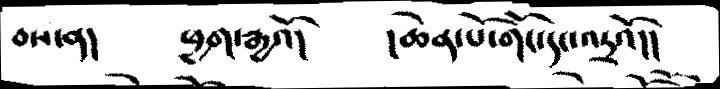བས་ན།    ཕྱག་རྒྱའོ།         །ཆེན་པོ་གོང་དང་འདྲའོ།།
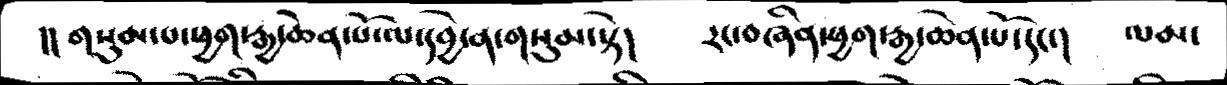།།གསུམ་པ་ཕྱག་རྒྱ་ཆེན་པོ་ལ་དབྱེ་ན་གསུམ་སྟེ།   རང་བཞིན་ཕྱག་རྒྱ་ཆེན་པོ་དང་།   ལམ་
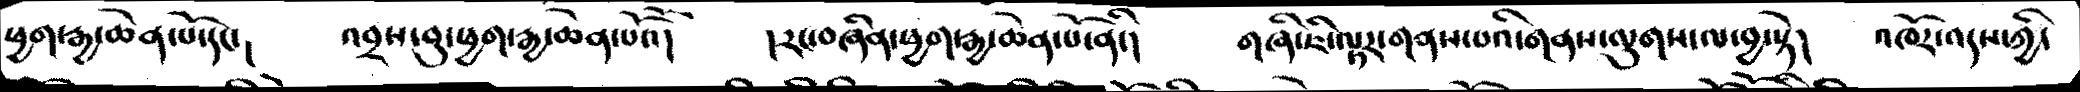ཕྱག་རྒྱ་ཆེན་པོ་ད་།   འབྲས་བུ་ཕྱག་རྒྱ་ཆེན་པོའོ།   །རང་བཞིན་ཕྱག་རྒྱ་ཆེན་པོ་ནི་།   གཞི་ཇི་ལྟར་གནས་པའི་གནས་ལུགས་ལ་བྱ་སྟེ།   འཁོར་འདས་ཀྱི་
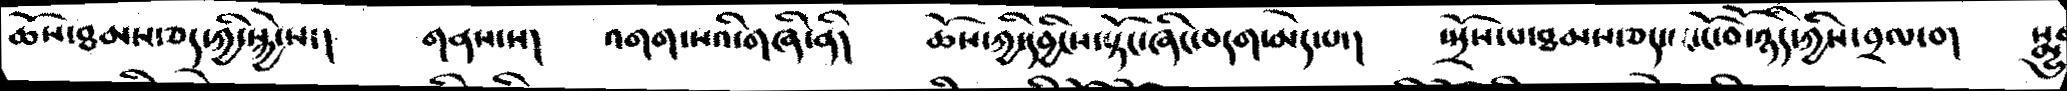ཆོས་ཐམས་ཅད་ཀྱི་སྐྱེ་ས་།   གནས་ས།   འགག་པའི་གཞི་ནི།   ཆོས་ཀྱི་དབྱིངས་སྟོང་ཞིང་བདག་མེད་པ་།   སྤྲོས་པ་ཐམས་ཅད་ངོ་བོ་ཉིད་ཀྱིས་བྲལ་བ།  སྨྱུ
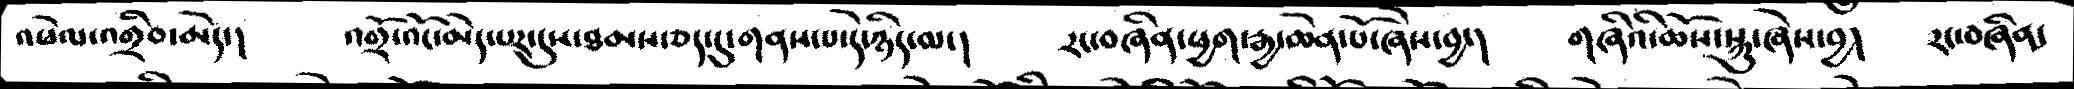འཕེལ་འགྲིབ་མེད་།   འགྲོ་འོང་མེད་པར་དུས་ཐམས་ཅད་དུ་གནས་པ་དེ་ཉིད་མ་།  རང་བཞིན་ཕྱག་རྒྱ་ཆེན་པོ་ཞེས་བྱ་།  གཞིའི་ཆོས་སྐུ་ཞེས་བྱ།  རང་བཞིན་
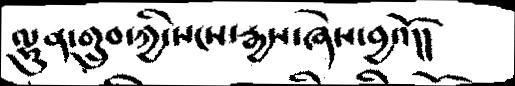ལྷུན་གྲུབ་ཀྱི་སངས་རྒྱས་ཞེས་བྱའོ།།
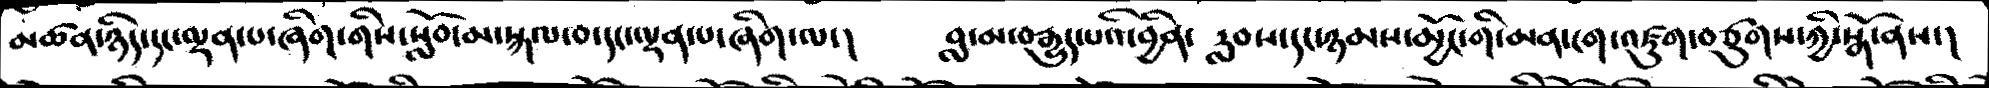མཚན་ཉིད་དང་ལྡན་པ་ཞིག་གིས་སློབ་མ་སྐལ་བ་དང་ལྡན་པ་ཞིག་ལ་།   བླ་མ་བརྒྱུད་པའི་བྱིན་རླབས་དང་ཉམས་མྱོང་གི་མན་ངག་འཛུག་བཙུགས་ཀྱི་སྒོ་ནས་།
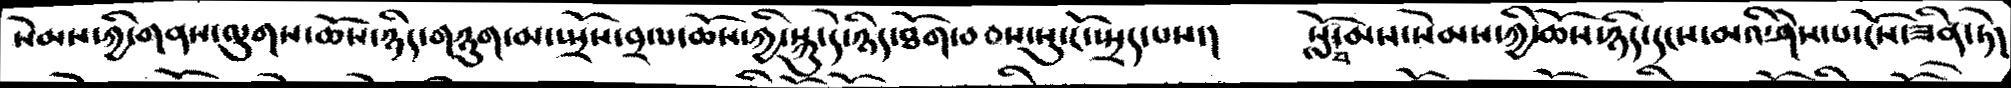སེམས་ཀྱི་གནས་ལུགས་ཆོས་ཉིད་གཉུག་མ་སྤྲོས་བྲལ་ཆོས་ཀྱི་སྐུ་དེ་ཉིད་ཐོག་བབས་སུ་ངོ་སྤྲོད་པས་།  སློབ་མས་སེམས་ཀྱི་ཆོས་ཉིད་དངས་མའི་ཤེས་པ་ངོས་ཟིན་ཏེ།
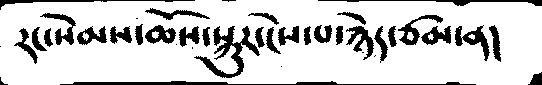རང་སེམས་ཆོས་སྐུར་ངེས་པ་རྙེད་ཙམ་ན།
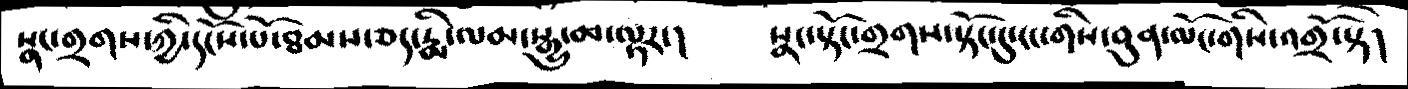སྣང་གྲགས་ཀྱི་དངོས་པོ་ཐམས་ཅད་རྨི་ལམ་སྒྱུ་མ་ལྟར་།   སྣང་སྟོང་གྲགས་སྟོང་དུ་ངང་གིས་བུན་ལོང་གིས་འགྲོ་སྟེ།
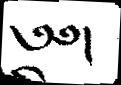༄༅།
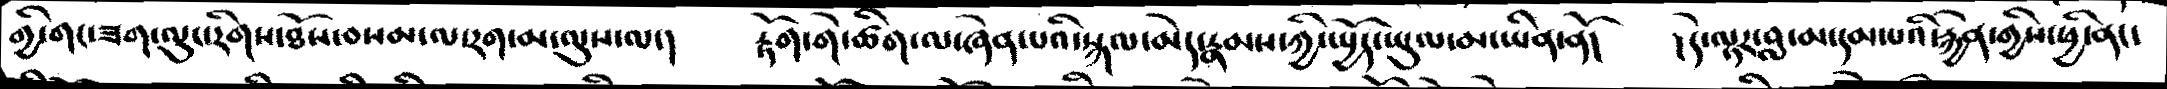གྱི་གང་ཟག་ལུང་རིགས་ཐོས་བསམ་ལ་རག་མ་ལུས་ལ་།  རྟོག་གེ་ཚིག་ལ་ཞེན་པའི་སྐལ་མེད་རྣམས་ཀྱི་སྤྱོད་ཡུལ་མ་ཡིན་ནོ།  །དེ་ལྟར་བླ་མ་དམ་པའི་རྐྱེན་གྱིས་ཕྱི་ནང་
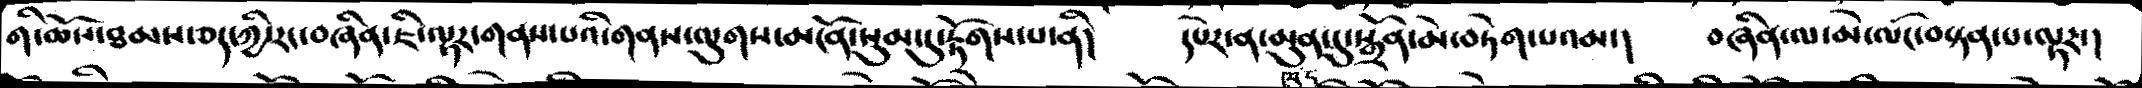གི་ཆོས་ཐམས་ཅད་ཀྱི་རང་བཞིན་ཇི་ལྟར་གནས་པའི་གནས་ལུགས་མངོན་སུམ་དུ་རྟོགས་པ་ནི།  དཔེར་ན་མུན་ཁང་དུ་སྒྲོན་མེ་བཏེགས་པའམ་།  བཞིན་ལ་མེ་ལོང་བསྟན་པ་ལྟར་།
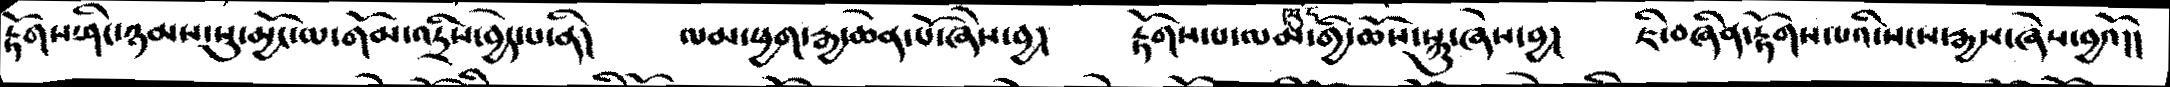རྟོགས་ཤིང་ཉམས་སུ་མྱོང་ལ་གོམ་འདྲིས་བྱེད་པ་ནི།  ལམ་ཕྱག་རྒྱ་ཆེན་པོ་ཞེས་བྱ།  རྟོགས་པ་ལམ་གྱི་ཆོས་སྐུ་ཞེས་བྱ།  ཇི་བཞིན་རྟོགས་པའི་སངས་རྒྱས་ཞེས་བྱའོ།།
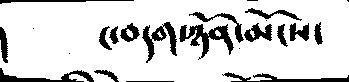ང་བདག་ཉོན་མོངས་
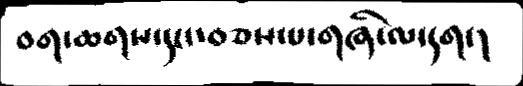བག་ཆགས་དང་བཅས་པ་གཞི་ལ་དག་།
